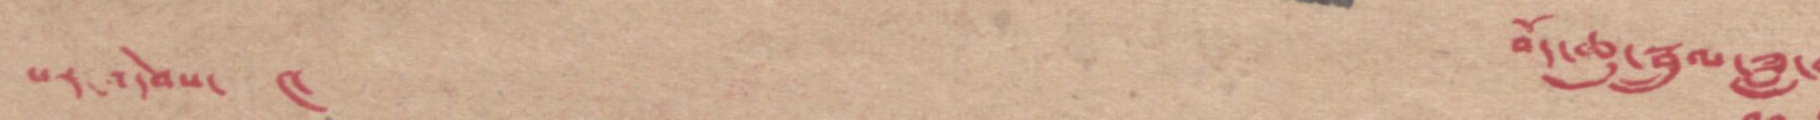པར་འདེབས་ ༤ བོད་ཆུ་སྦྲུལ་ཟླ་
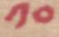༡༠
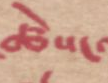ཚེས་
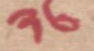༢༦
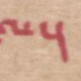ལ།
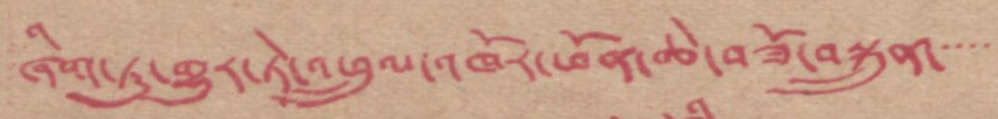ཞིག་ཏུ་གྱུར་ཏེ་འཕྲུལ་འཁོར་ཕོན་ཆེ་བཟོ་བསྐྲུན་་་་་
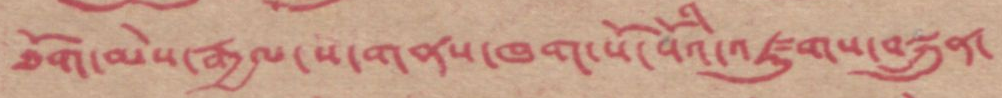ཐོག་མེས་རྒྱལ་ས་གནས་ཁག་སོ་སོའི་འཛུགས་བསྐྲུན་
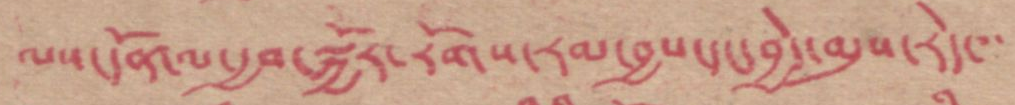ལས་དོན་ལ་རྒྱབ་སྐྱོར་རོགས་རམ་དང་བྱས་དང་བྱེད་མུས་རེད།་་
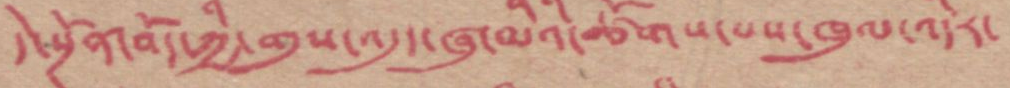དེ་སྔོན་བོད་ཀྱི་གུས་འདུད་ཞུ་མིའི་ཚོགས་པས་ཁུལ་འདིར་
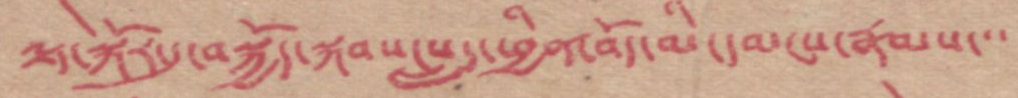ལྷ་སྐོར་དུ་བསྐྱོད་སྐབས་སླད་ཕྱིན་བོད་མི་དམངས་རྣམས་་
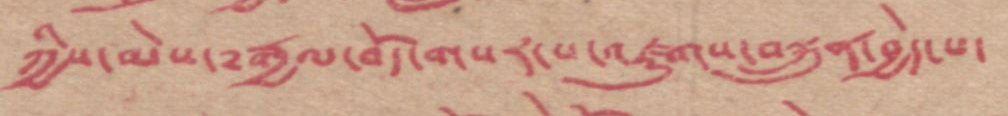ཀྱིས་མེས་༸རྒྱལ་བོད་གསར་པ་འཛུགས་བསྐྲུན་བྱེད་པ་
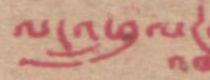ལ་འཕྲུལ་
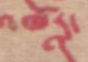འཁོར་
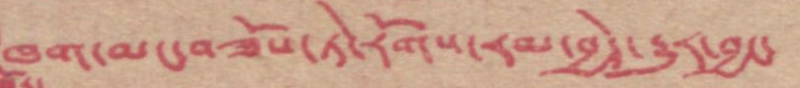ཁག་མང་བཟོས་ཏེ་རོགས་རམ་བྱེད་རྒྱུར་བྱང་
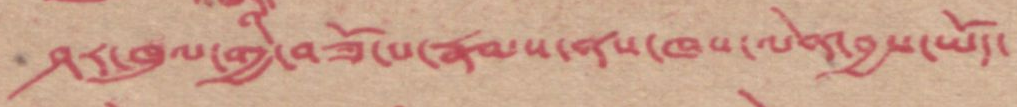ཤར་ཁུལ་གྱི་བཟོ་པ་རྣམས་ནས་ཁས་ལེན་བྱས་ཡོད་
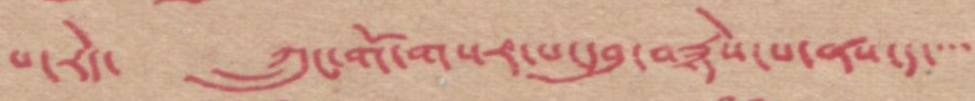པ་རེད་ ཀྲུང་གོ་གསར་པ་དབུ་བརྙེས་པ་ནས་ད་་་
